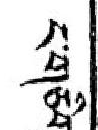ང་གཅིག་
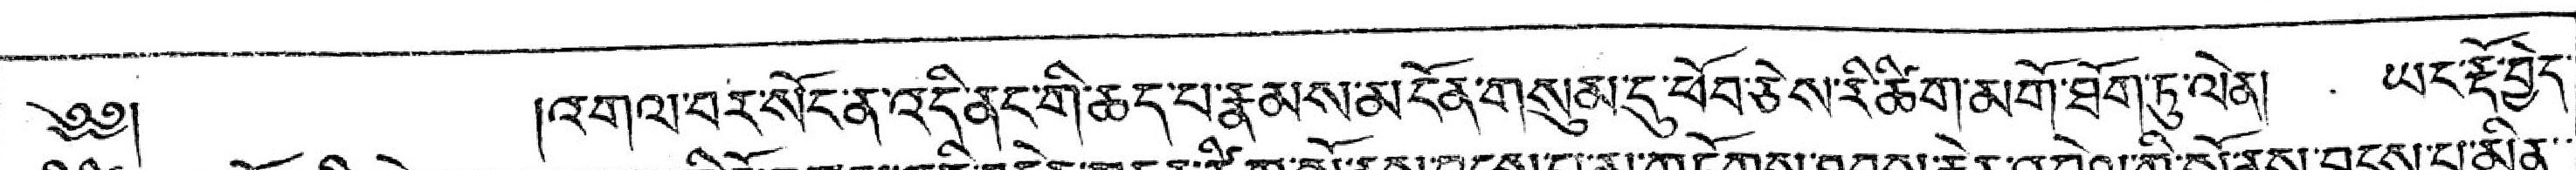༄༅།  །འགལ་བར་སོང་ན་འདི་ནང་གི་ཆད་པ་རྣམས་མངོན་གསུམ་ད་ཕོབ་ཅེས་རི་ཚིག་མགོ་ཐོག་ཏུ་ལེན། ཡང་རྡོ་བྱེད་
